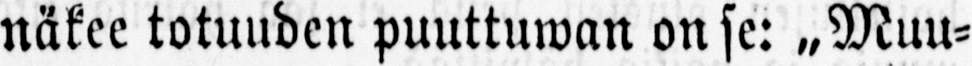näkee totuuden puuttuwan on se: „Muu-
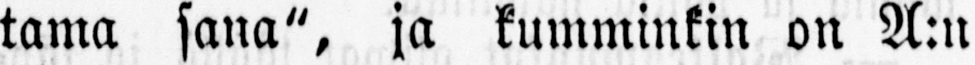tama sana", ja kumminkin on A: n
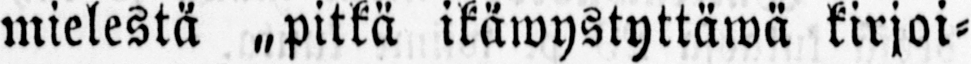mielestä „pitkä ikäwystyttäwä kirjoi-
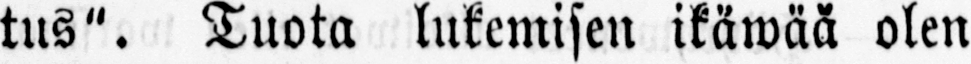tus". Tuota lukemisen ikäwää olen
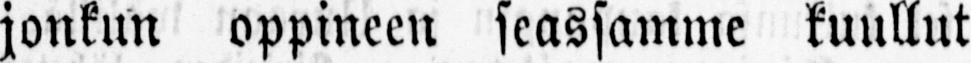jonkun oppineen seassamme kuullut
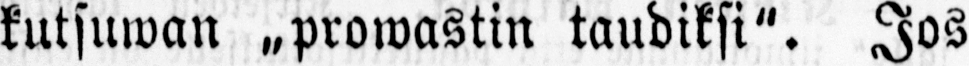kutsuman ˶prowastin taudiksi". Jos
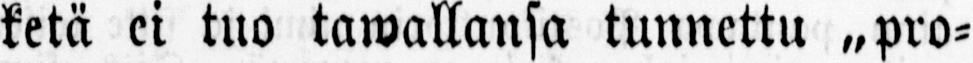ketä ei tuo tawallansa tunnettu „ pro-
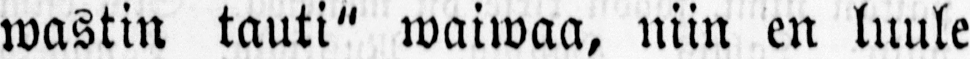wastin tauti" waiwaa, niin en luule
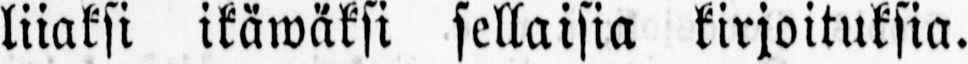liiaksi ikäwäksi sellaisia kirjoituksia.
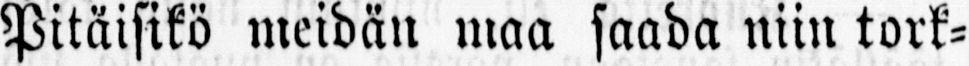Pitäisikö meidän maa saada niin tork-
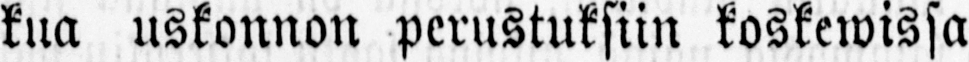kua uskonnon perustuksiin koskewissa
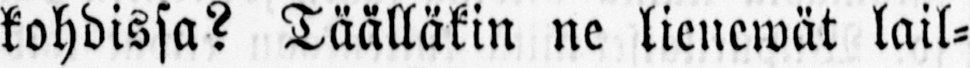kohdissa? Täälläkin ne lienewät lail-
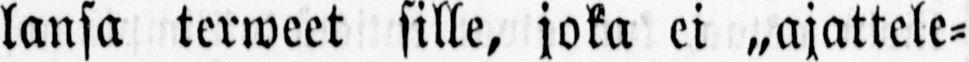lansa terweet sille, joka ei „ajattele-
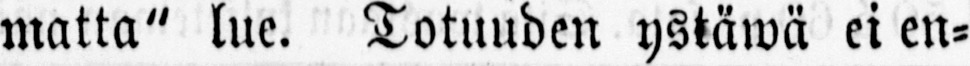matta" lue. Totuuden ystäwä ei en-
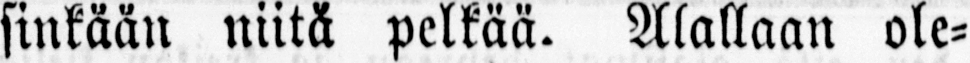sinkään niitä pelkää. Alallaan ole-
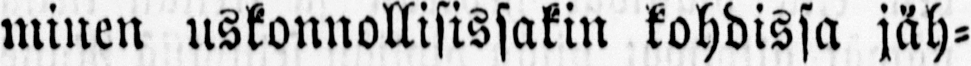minen uskonnollisissakin kohdissa jäh-
